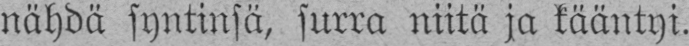nähdä syntinsä, surra niitä ja kääntyi.
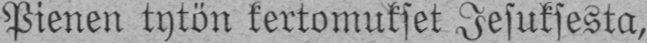Pienen tytön kertomukset Jesuksesta,
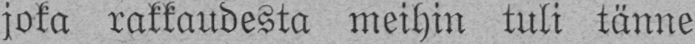joka rakkaudesta meihin tuli tänne
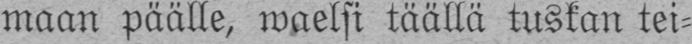maan päälle, waelsi täällä tuskan tei-
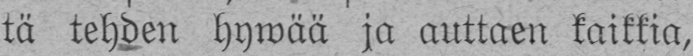tä tehden hywää ja auttaen kaikkia,
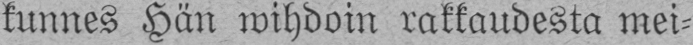kunnes Hän wihdoin rakkaudesta mei-
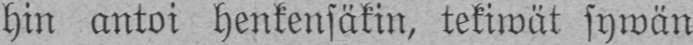hin antoi henkensäkin, tekiwät sywän
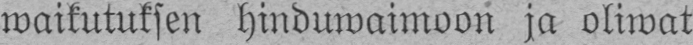waikutuksen hinduwaimoon ja oliwat
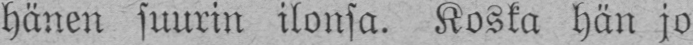hänen suurin ilonsa. Koska hän jo
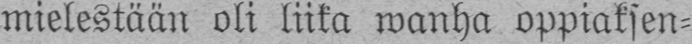mielestään oli liika wanha oppiaksen-
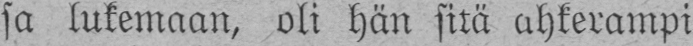sa lukemaan, oli hän sitä ahkerampi
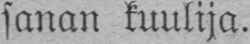sanan kuulija.
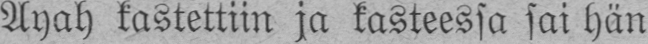Ayah kastettiin ja kasteessa sai hän
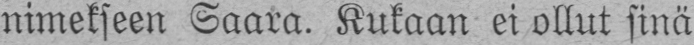nimekseen Saara. Kukaan ei ollut sinä
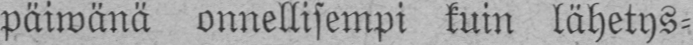päiwänä onnellisempi kuin lähetys-
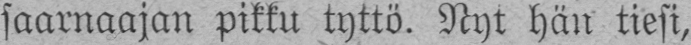saarnaajan pikku tyttö. Nyt hän tiesi,
